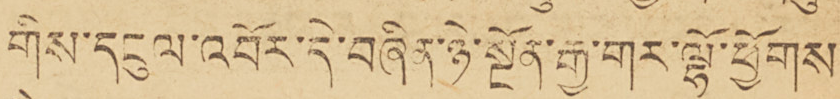གིས་དངུལ་འབོར་དེ་བཞིན་ཉེ་སྔོན་རྒྱ་གར་ལྷོ་ཕྱོགས་
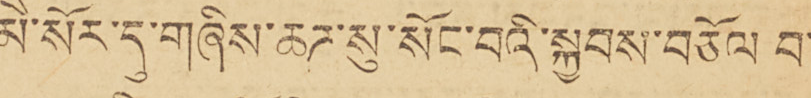མཻ་སོར་དུ་གཞིས་ཆཊ་སུ་སོང་བའི་སྐྱབས་བཅོལ བ་
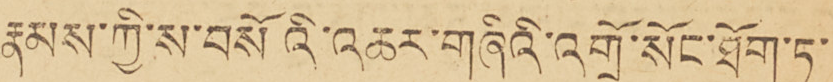རྣམས་ཀྱི་ས་བསོའི་འཆར་གཞིའི་འགྲོ་སོང་ཐོག་ཏུ་
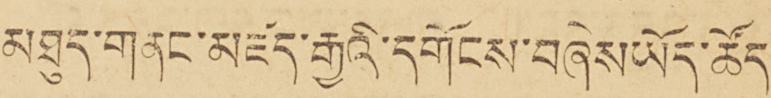མཐུན་གནང་མཛད་རྒྱའི་དགོངས་བཞེས་ཡོད་ཚོད་
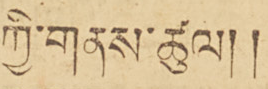ཀྱི་གནས་ཚུལ།།
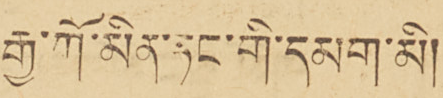རྒྱ་ཀོ་མིན་ཏང་གི་དམག་མི།
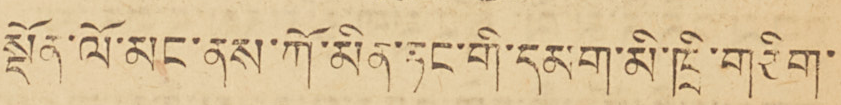སྔོན་ལོ་མང་ནས་ཀོ་མིན་ཏང་གི་དམག་མི་ཁྲི་གཅིག་
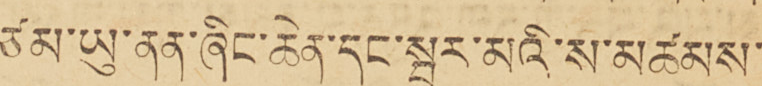ཙམ་ཡུ་ནན་ཞིང་ཆེན་དང་སྦར་མའི་ས་མཚམས་
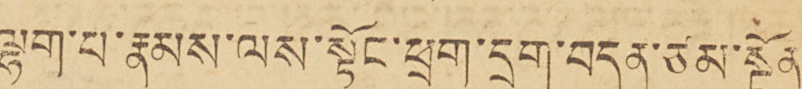ལྷག་པ་རྣམས་ལས་སྟོང་ཕྲག་དྲུག་བདུན་ཙམ་སྔོན་
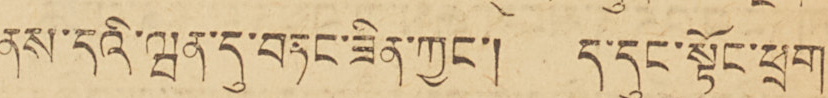ནས་དའི་ཝན་དུ་བཏང་ཟིན་ཀྱང་། ད་དུང་སྟོང་ཕྲག་
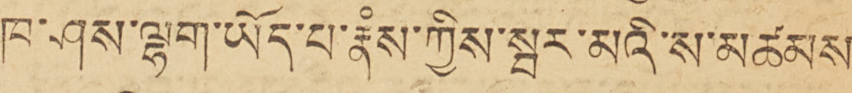ཁ་ཤས་ལྷག་ཡོད་པ་རྣཾས་ཀྱིས་སྦར་མའི་ས་མཚམས་
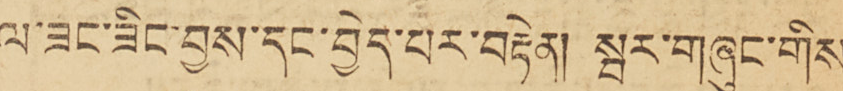ལ་ཟང་ཟིང་བྱས་དང་བྱེད་པར་བརྟེན། སྦར་གཞུང་གིས་
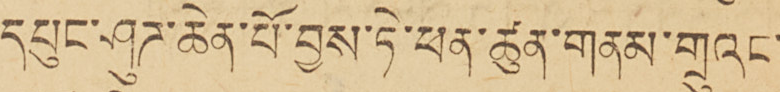དཔུང་ཤུཊ་ཆེན་པོ་བྱས་ཏེ་ཕན་ཚུན་གནམ་གྲུའང་
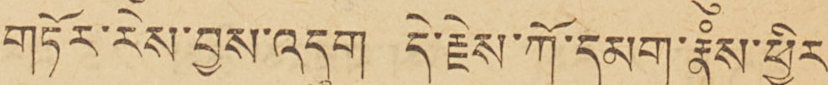གཏོང་རེས་བྱས་འདུག དེ་རྗེས་ཀོ་དམག་རྣཾས་ཕྱིར་
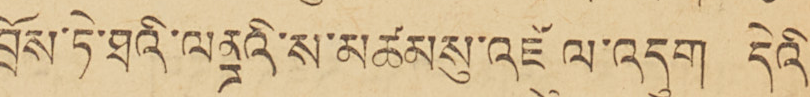བྲོས་ཏེ་ཐའི་ལནྜའི་ས་མཚམསུ་འཛུལ་འདུག དེའི་
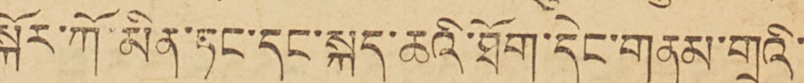སྐོར་ཀོ་མིན་ཏང་དང་སྐད་ཆའི་ཐོག་དེང་གནས་གྲུའི་
